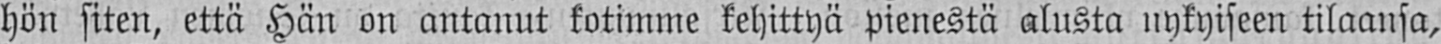hön siten, että Hän on antanut kotimme kehittyä pienestä alusta nykyiseen tilaansa,
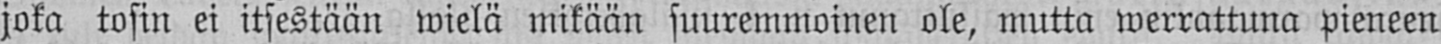joka tosin ei itsestään wielä mikään suuremmoinen ole, mutta werrattuna pieneen
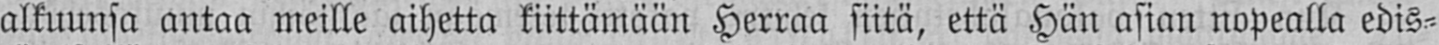alkuunsa antaa meille aihetta kiittämään Herraa siitä, että Hän asian nopealla edis-
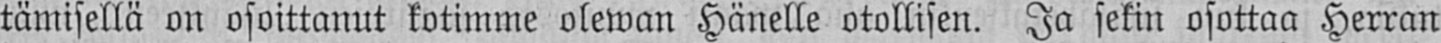tämisellä on osoittanut kotimme olewan Hänelle otollisen. Ja sekin osottaa Herran
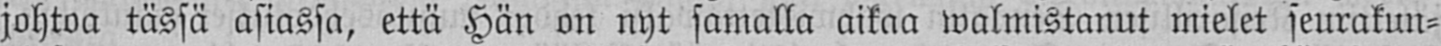johtoa tässä asiassa, että Hän on nyt samalla aikaa walmistanut mielet seurakun-
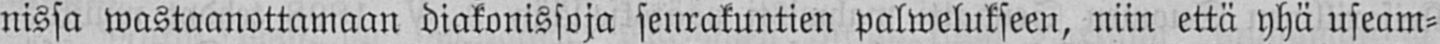nissa wastaanottamaan diakonissoja seurakuntien palwelukseen, niin että yhä useam-
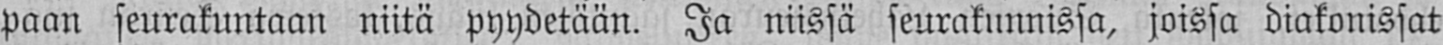paan seurakuntaan niitä pyydetään. Ja niissä seurakunnissa, joissa diakonissat
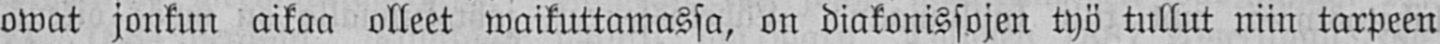owat jonkun aikaa olleet waikuttamassa, on diakonissojen työ tullut niin tarpeen
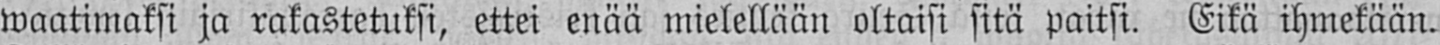waatimaksi ja rakastetuksi, ettei enää mielellään oltaisi sitä paitsi. Eikä ihmekään.
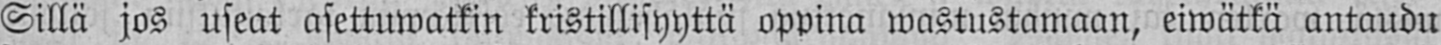Sillä jos useat asettuwatkin kristillisyyttä oppina wastustamaan, eiwätkä antaudu
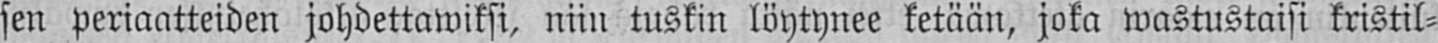sen periaatteiden johdettawiksi, niin tuskin löytynee ketään, joka wastustaisi kristil-
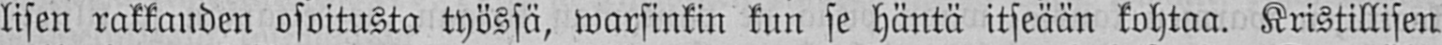lisen rakkauden osoitusta työssä, warsinkin kun se häntä itseään kohtaa. Kristillisen
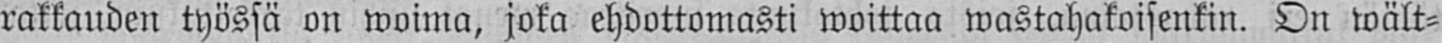rakkauden työssä on woima, joka ehdottomasti woittaa wastahakoisenkin. On wält-
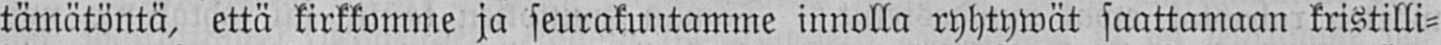tämätöntä, että kirkkomme ja seurakuntamme innolla ryhtywät saattamaan kristilli-
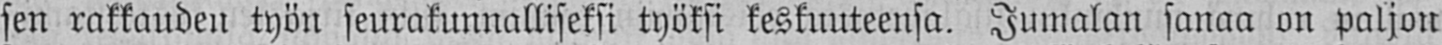sen rakkauden työn seurakunnalliseksi työksi keskuuteensa. Jumalan sanaa on paljon
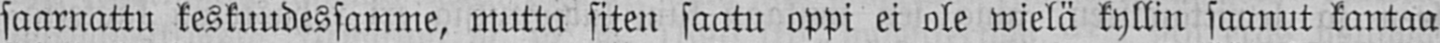saarnattu keskuudessamme, mutta siten saatu oppi ei ole wielä kyllin saanut kantaa
